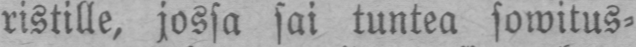ristille, jossa sai tuntea sowitus-
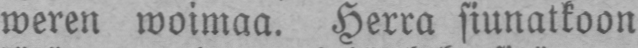weren woimaa. Herra siunatkoon
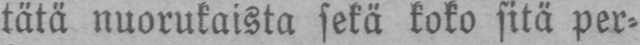tätä nuorukaista sekä koko sitä per-
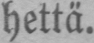hettä.
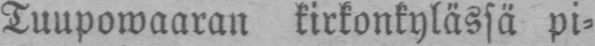Tuupowaaran kirkonkylässä pi-
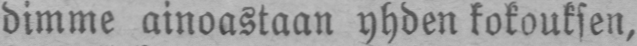dimme ainoastaan yhden kokouksen,
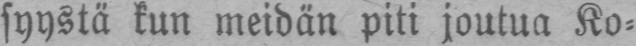syystä kun meidän piti joutua Ko-
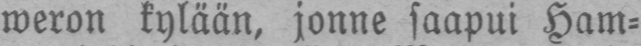weron kylään, jonne saapui Ham-
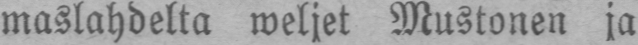maslahdelta weljet Mustonen ja
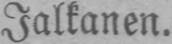Jalkanen.
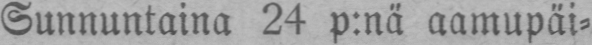Sunnuntaina 24 p:nä aamupäi-
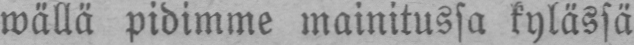wällä pidimme mainitussa kylässä
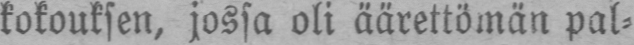kokouksen, jossa oli äärettömän pal-
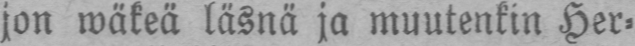jon wäkeä läsnä ja muutenkin Her-
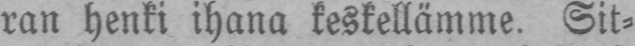ran henki ihana keskellämme. Sit-
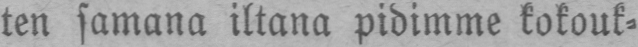ten samana iltana pidimme kokouk-
